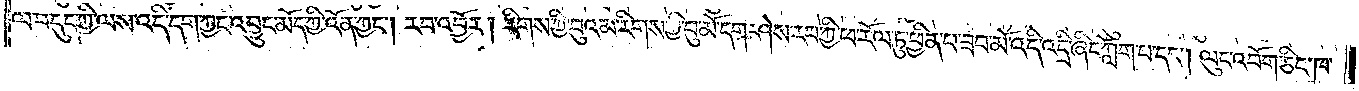ལ་བདུད་ཀྱི་ལས་འདི་དག་ཀྱང་འབྱུང་མེད་ཀྱི་འོན་ཀྱང༌། རབ་འབྱོར། རིགས་ཀྱི་བུའམ་རིགས་ཀྱི་བུ་མོ་དག་ཤེས་རབ་ཀྱི་ཕ་རོལ་ཏུ་ཕྱིན་པ་ཟབ་མོ་འདི་འདྲི་ཞིང་ཀློག་པ་དང༌། ལུང་འབོག་ཅིང་ཁ་
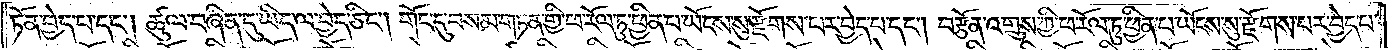ཏོན་བྱེད་པ་དང༌། ཚུལ་བཞིན་དུ་ཡིད་ལ་བྱེད་ཅིང༌། གོང་དུ་བསམ་གཏན་གྱི་ཕ་རོལ་ཏུ་ཕྱིན་པ་ཡོངས་སུ་རྫོགས་པར་བྱེད་པ་དང༌། བརྩོན་འགྲུས་ཀྱི་ཕ་རོལ་ཏུ་ཕྱིན་པ་ཡོངས་སུ་རྫོགས་པར་བྱེད་པ་
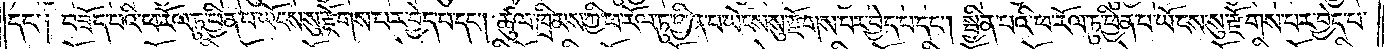དང་༑ བཟོད་པའི་ཕ་རོལ་ཏུ་ཕྱིན་པ་ཡོངས་སུ་རྫོགས་པར་བྱེད་པ་དང༌། ཚུལ་ཁྲིམས་ཀྱི་ཕ་རོལ་ཏུ་ཕྱིན་པ་ཡོངས་སུ་རྫོགས་པར་བྱེད་པ་དང༌། སྦྱིན་པའི་ཕ་རོལ་ཏུ་ཕྱིན་པ་ཡོངས་སུ་རྫོགས་པར་བྱེད་པ་
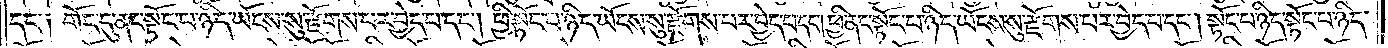དང་༑ གོང་དུ་ནང་སྟོང་པ་ཉིད་ཡོངས་སུ་རྫོགས་པར་བྱེད་པ་དང༌། ཕྱི་སྟོང་པ་ཉིད་ཡོངས་སུ་རྫོགས་པར་བྱེད་པ་དང༌། ཕྱི་ནང་སྟོང་པ་ཉིད་ཡོངས་སུ་རྫོགས་པར་བྱེད་པ་དང༌། སྟོང་པ་ཉིད་སྟོང་པ་ཉིད་
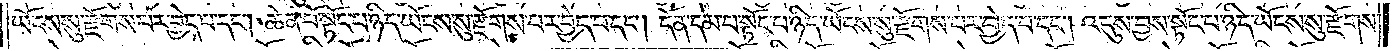ཡོངས་སུ་རྫོགས་པར་བྱེད་པ་དང༌། ཆེན་པོ་སྟོང་པ་ཉིད་ཡོངས་སུ་རྫོགས་པར་བྱེད་པ་དང༌། དོན་དམ་པ་སྟོང་པ་ཉིད་ཡོངས་སུ་རྫོགས་པར་བྱེད་པ་དང༌། འདུས་བྱས་སྟོང་པ་ཉིད་ཡོངས་སུ་རྫོགས་
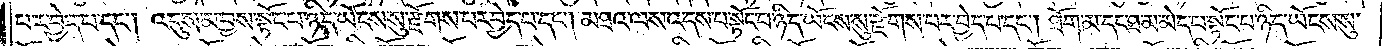པར་བྱེད་པ་དང༌། འདུས་མ་བྱས་སྟོང་པ་ཉིད་ཡོངས་སུ་རྫོགས་པར་བྱེད་པ་དང༌། མཐའ་ལས་འདས་པ་སྟོང་པ་ཉིད་ཡོངས་སུ་རྫོགས་པར་བྱེད་པ་དང༌། ཐོག་མ་དང་ཐ་མ་མེད་པ་སྟོང་པ་ཉིད་ཡོངས་སུ་
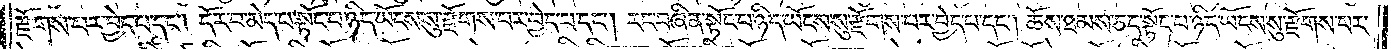རྫོགས་པར་བྱེད་པ་དང༌། དོར་བ་མེད་པ་སྟོང་པ་ཉིད་ཡོངས་སུ་རྫོགས་པར་བྱེད་པ་དང༌། རང་བཞིན་སྟོང་པ་ཉིད་ཡོངས་སུ་རྫོགས་པར་བྱེད་པ་དང༌། ཆོས་ཐམས་ཅད་སྟོང་པ་ཉིད་ཡོངས་སུ་རྫོགས་པར་
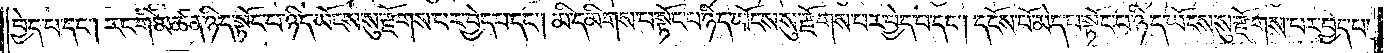བྱེད་པ་དང༌། རང་གི་མཚན་ཉིད་སྟོང་པ་ཉིད་ཡོངས་སུ་རྫོགས་པར་བྱེད་པ་དང༌། མི་དམིགས་པ་སྟོང་པ་ཉིད་ཡོངས་སུ་རྫོགས་པར་བྱེད་པ་དང༌། དངོས་པོ་མེད་པ་སྟོང་པ་ཉིད་ཡོངས་སུ་རྫོགས་པར་བྱེད་པ་
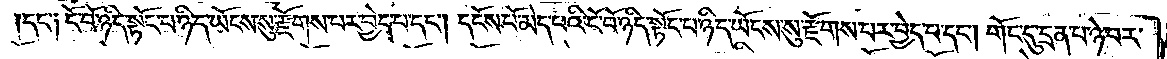དང་༑ ངོ་བོ་ཉིད་སྟོང་པ་ཉིད་ཡོངས་སུ་རྫོགས་པར་བྱེད་པ་དང༌། དངོས་པོ་མེད་པའི་ངོ་བོ་ཉིད་སྟོང་པ་ཉིད་ཡོངས་སུ་རྫོགས་པར་བྱེད་པ་དང༌། གོང་དུ་དྲན་པ་ཉེ་བར་
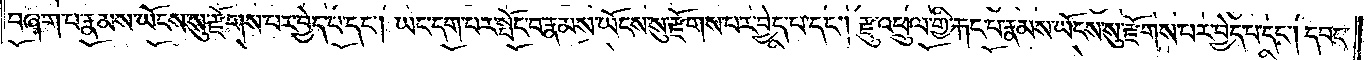བཞག་པ་རྣམས་ཡོངས་སུ་རྫོགས་པར་བྱེད་པ་དང༌། ཡང་དག་པར་སྤོང་བ་རྣམས་ཡོངས་སུ་རྫོགས་པར་བྱེད་པ་དང༌། རྫུ་འཕྲུལ་གྱི་རྐང་པ་རྣམས་ཡོངས་སུ་རྫོགས་པར་བྱེད་པ་དང༌། དབང་
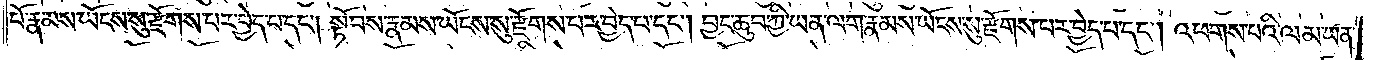པོ་རྣམས་ཡོངས་སུ་རྫོགས་པར་བྱེད་པ་དང༌། སྟོབས་རྣམས་ཡོངས་སུ་རྫོགས་པར་བྱེད་པ་དང༌། བྱང་ཆུབ་ཀྱི་ཡན་ལག་རྣམས་ཡོངས་སུ་རྫོགས་པར་བྱེད་པ་དང༌། འཕགས་པའི་ལམ་ཡན་
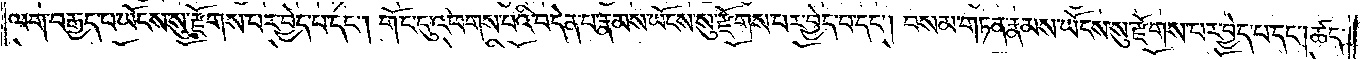ལག་བརྒྱད་པ་ཡོངས་སུ་རྫོགས་པར་བྱེད་པ་དང༌། གོང་དུ་འཕགས་པའི་བདེན་པ་རྣམས་ཡོངས་སུ་རྫོགས་པར་བྱེད་པ་དང༌། བསམ་གཏན་རྣམས་ཡོངས་སུ་རྫོགས་པར་བྱེད་པ་དང༌། ཚད་
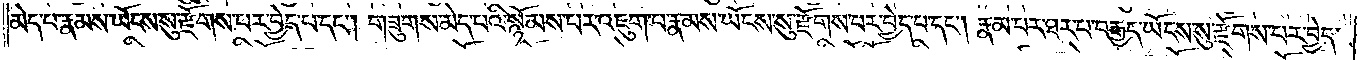མེད་པ་རྣམས་ཡོངས་སུ་རྫོགས་པར་བྱེད་པ་དང༌། གཟུགས་མེད་པའི་སྙོམས་པར་འཇུག་པ་རྣམས་ཡོངས་སུ་རྫོགས་པར་བྱེད་པ་དང༌། རྣམ་པར་ཐར་པ་བརྒྱད་པ་ཡོངས་སུ་རྫོགས་པར་བྱེད་
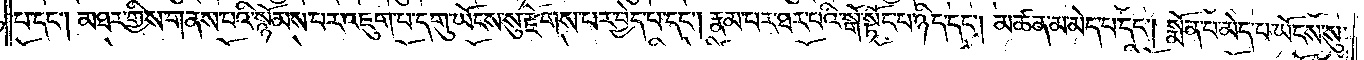པ་དང༌། མཐར་གྱིས་གནས་པའི་སྙོམས་པར་འཇུག་པ་དགུ་ཡོངས་སུ་རྫོགས་པར་བྱེད་པ་དང༌། རྣམ་པར་ཐར་པའི་སྒོ་སྟོང་པ་ཉིད་དང༌། མཚན་མ་མེད་པ་དང༌། སྨོན་པ་མེད་པ་ཡོངས་སུ་
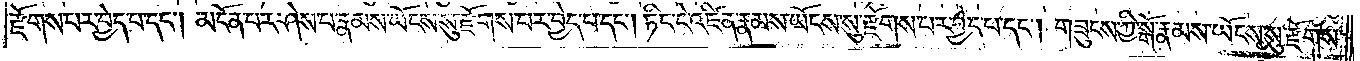རྫོགས་པར་བྱེད་པ་དང༌། མངོན་པར་ཤེས་པ་རྣམས་ཡོངས་སུ་རྫོགས་པར་བྱེད་པ་དང༌། ཏིང་ངེ་འཛིན་རྣམས་ཡོངས་སུ་རྫོགས་པར་བྱེད་པ་དང༌། གཟུངས་ཀྱི་སྒོ་རྣམས་ཡོངས་སུ་རྫོགས་
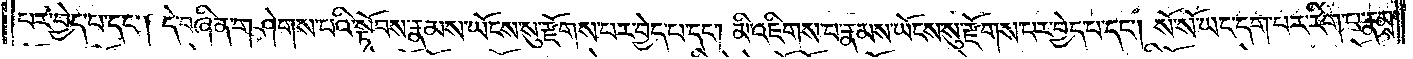པར་བྱེད་པ་དང༌། དེ་བཞིན་གཤེགས་པའི་སྟོབས་རྣམས་ཡོངས་སུ་རྫོགས་པར་བྱེད་པ་དང༌། མི་འཇིགས་པ་རྣམས་ཡོངས་སུ་རྫོགས་པར་བྱེད་པ་དང༌། སོ་སོ་ཡང་དག་པར་རིག་པ་རྣམས་
